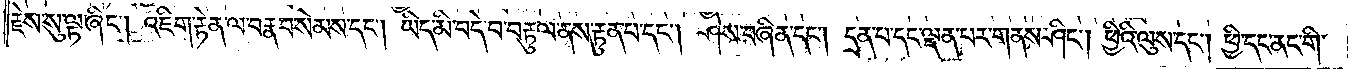རྗེས་སུ་ལྟ་ཞིང༌། འཇིག་རྟེན་ལ་བརྣབ་སེམས་དང༌། ཡིད་མི་བདེ་བ་བརྟུལ་ནས་རྟུན་པ་དང༌། ཤེས་བཞིན་དང༌། དྲན་པ་དང་ལྡན་པར་གནས་ཤིང༌། ཕྱིའི་ལུས་དང༌། ཕྱི་དང་ནང་གི་
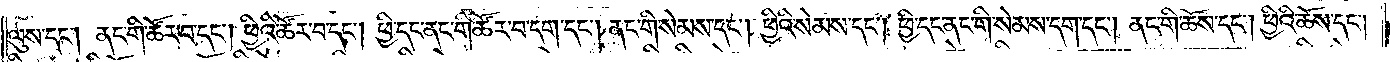ལུས་དང༌། ནང་གི་ཚོར་བ་དང༌། ཕྱིའི་ཚོར་བ་དང༌། ཕྱི་དང་ནང་གི་ཚོར་བ་དག་དང༌། ནང་གི་སེམས་དང༌། ཕྱིའི་སེམས་དང༌། ཕྱི་དང་ནང་གི་སེམས་དག་དང༌། ནང་གི་ཆོས་དང༌། ཕྱིའི་ཆོས་དང༌།
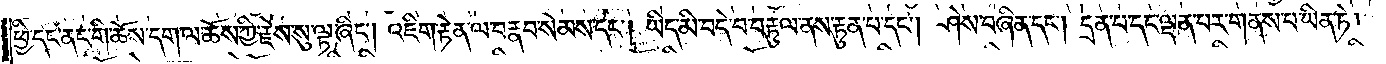ཕྱི་དང་ནང་གི་ཆོས་དག་ལ་ཆོས་ཀྱི་རྗེས་སུ་ལྟ་ཞིང༌། འཇིག་རྟེན་ལ་བརྣབ་སེམས་དང༌། ཡིད་མི་བདེ་བ་བརྟུལ་ནས་རྟུན་པ་དང༌། ཤེས་བཞིན་དང༌། དྲན་པ་དང་ལྡན་པར་གནས་པ་ཡིན་ཏེ་
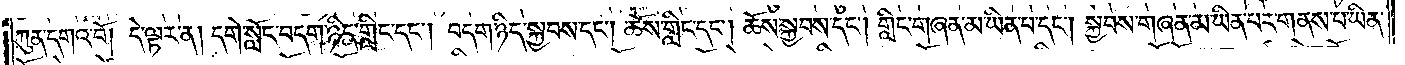ཀུན་དགའ་བོ། དེ་ལྟར་ན། དགེ་སློང་བདག་ཉིད་གླིང་དང༌། བདག་ཉིད་སྐྱབས་དང༌། ཆོས་གླིང་དང༌། ཆོས་སྐྱབས་དང༌། གླིང་གཞན་མ་ཡིན་པ་དང༌། སྐྱབས་གཞན་མ་ཡིན་པར་གནས་པ་ཡིན་
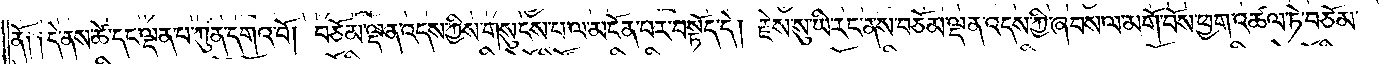ནོ། །དེ་ནས་ཚེ་དང་ལྡན་པ་ཀུན་དགའ་བོ། །བཅོམ་ལྡན་འདས་ཀྱིས་གསུངས་པ་ལ་མངོན་པར་བསྟོད་དེ། རྗེས་སུ་ཡི་རང་ནས་བཅོམ་ལྡན་འདས་ཀྱི་ཞབས་ལ་མགོ་བོས་ཕྱག་འཚལ་ཏེ་བཅོམ་
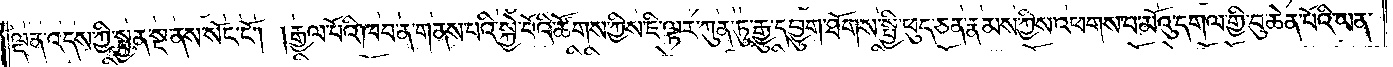ལྡན་འདས་ཀྱི་སྤྱན་སྔ་ནས་སོང་ངོ༌། །རྒྱལ་པོའི་ཁབ་ན་གནས་པའི་སྐྱེ་བོའི་ཚོགས་ཀྱིས་ཇི་ལྟར་ཀུན་ཏུ་རྒྱུ་དབྱུག་ཐོགས་སྤྱི་ཕུད་ཅན་རྣམས་ཀྱིས་འཕགས་པ་མོའུ་དགལ་གྱི་བུ་ཆེན་པོའི་ཡན་
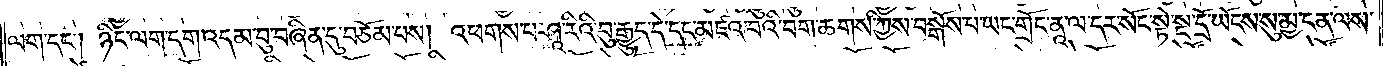ལག་དང༌། ཉིང་ལག་དག་འདམ་བུ་བཞིན་དུ་བཅོམ་པས། འཕགས་པ་ཤཱ་རིའི་བུ་རྒྱུད་དེ་དང་མཛའ་བའི་བག་ཆགས་ཀྱིས་བསྒོས་པ་ཡང་གྲོང་ནཱ་ལ་དར་སོང་སྟེ་སྔ་དྲོ་ཡོངས་སུ་མྱ་ངན་ལས་
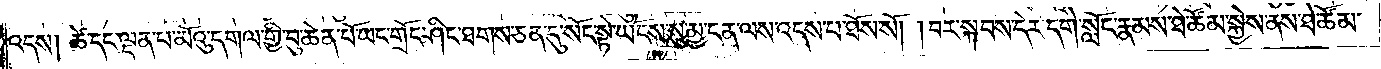འདས། ཚེ་དང་ལྡན་པ་མོའུ་དགལ་གྱི་བུ་ཆེན་པོ་ཡང་གྲོང་ཤིང་ཐགས་ཅན་དུ་སོང་སྟེ་ཡོངས་སུ་མྱ་ངན་ལས་འདས་པ་ཐོས་སོ། །བར་སྐབས་དེར་དགེ་སློང་རྣམས་ཐེ་ཚོམ་སྐྱེས་ནས་ཐེ་ཚོམ་
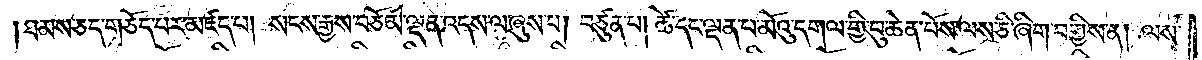ཐམས་ཅད་གཅོད་པར་མཛད་པ། སངས་རྒྱས་བཅོམ་ལྡན་འདས་ལ་ཞུས་པ། བཙུན་པ། ཚེ་དང་ལྡན་པ་མོའུ་དགལ་གྱི་བུ་ཆེན་པོས་ལས་ཅི་ཞིག་བགྱིས་ན། ལས་
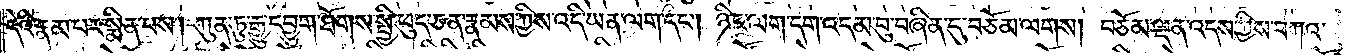དེའི་རྣམ་པར་སྨིན་པས། ཀུན་ཏུ་རྒྱུ་དབྱུག་ཐོགས་སྤྱི་ཕུད་ཅན་རྣམས་ཀྱིས་འདི་ཡན་ལག་དང༌། ཉིང་ལག་དག་འདམ་བུ་བཞིན་དུ་བཅོམ་ལགས། བཅོམ་ལྡན་འདས་ཀྱིས་བཀའ་
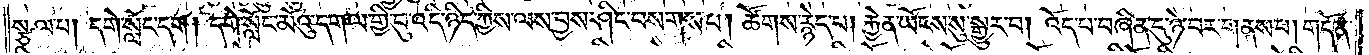སྩལ་པ། དགེ་སློང་དག། དགེ་སློང་མོའུ་དགལ་གྱི་བུ་འདི་ཉིད་ཀྱིས་ལས་བྱས་ཤིང་བསགས་པ། ཚོགས་རྙེད་པ། རྐྱེན་ཡོངས་སུ་སྒྱུར་བ། འོད་པ་བཞིན་དུ་ཉེ་བར་གནས་པ། གདོན་
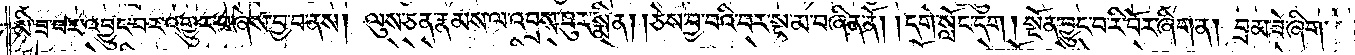མི་ཟ་བར་འབྱུང་བར་འགྱུར་བ་ཞེས་བྱ་བ་ནས། ལུས་ཅན་རྣམས་ལ་འབྲས་བུར་སྨིན། །ཅེས་བྱ་བའི་བར་སྔ་མ་བཞིན་ནོ། །དགེ་སློང་དག། སྔོན་བྱུང་བ་རི་བོར་ཞིག་ན། བྲམ་ཟེ་ཞིག་
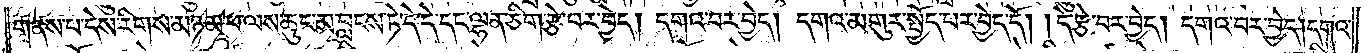གནས་པ་དེས་རིགས་མཉམ་པ་ལས་ཆུང་མ་བླངས་ཏེ་དེ་དེ་དང་ལྷན་ཅིག་རྩེ་བར་བྱེད། དགའ་བར་བྱེད། དགའ་མགུར་སྤྱོད་པར་བྱེད་དོ། །དེ་རྩེ་བར་བྱེད། དགའ་བར་བྱེད། དགའ་
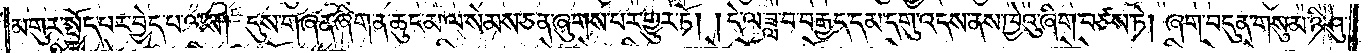མགུར་སྤྱོད་པར་བྱེད་པ་ལས། དུས་གཞན་ཞིག་ན་ཆུང་མ་ལ་སེམས་ཅན་ཞུགས་པར་གྱུར་ཏོ། །དེ་ལ་ཟླ་བ་བརྒྱད་དམ་དགུ་འདས་ནས་ཁྱེའུ་ཞིག་བཙས་ཏེ། ཞག་བདུན་གསུམ་ཉི་ཤུ་
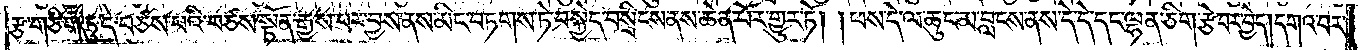རྩ་གཅིག་ཏུ་དེ་བཙས་པའི་བཙས་སྟོན་རྒྱས་པར་བྱས་ནས་མིང་བཏགས་ཏེ་བསྐྱེད་བསྲིངས་ནས་ཆེན་པོར་གྱུར་ཏོ། །ཕས་དེ་ལ་ཆུང་མ་བླངས་ནས་དེ་དེ་དང་ལྷན་ཅིག་རྩེ་བར་བྱེད། དགའ་བར་
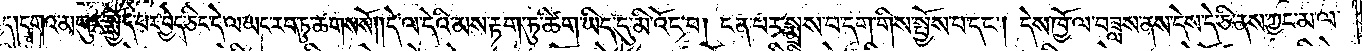བྱད། དགའ་མགུར་སྤྱོད་པར་བྱེད་ཅིང་དེ་ལ་ཡང་རབ་ཏུ་ཆགས་སོ། །དེ་ལ་དེའི་མས་རྟག་ཏུ་ཚིག་ཡིད་དུ་མི་འོང་བ། ངན་པར་སྨྲས་པ་དག་གིས་སྤྱོས་པ་དང༌། དེས་ཁྱོ་ལ་བཟླས་ནས་དེས་དེ་ཅི་ནས་ཀྱང་མ་ལ་
